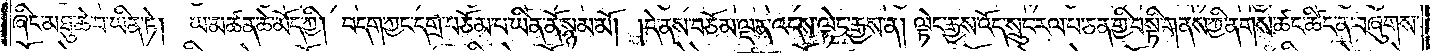ཞིང་མཐུ་ཆེ་བ་ཡིན་ཏེ། ཡ་མཚན་ཆེ་མོད་ཀྱི། བདག་ཀྱང་དགྲ་བཅོམ་པ་ཡིན་ནོ་སྙམ་མོ། །དེ་ནས་བཅོམ་ལྡན་འདས་ལྟེང་རྒྱས་ན། ལྟེང་རྒྱས་འོད་སྲུང་རལ་པ་ཅན་གྱི་བསྟི་གནས་ཀྱི་ནགས་ཚང་ཚིང་ན་བཞུགས་
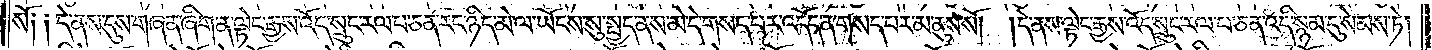སོ༑ ༑དེ་ནས་དུས་གཞན་ཞིག་ན་ལྟེང་རྒྱས་འོད་སྲུང་རལ་པ་ཅན་རང་ཉིད་མེ་ལ་ཡོངས་སུ་སྤྱད་ནས་མེ་དེ་གསད་པར་འདོད་ན་གསད་པར་མ་ནུས་སོ། །དེ་ནས་ལྟེང་རྒྱས་འོད་སྲུང་རལ་པ་ཅན་འདི་སྙམ་དུ་སེམས་ཏེ།
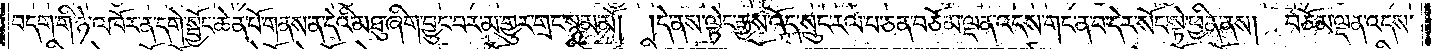བདག་གི་ཉེ་འཁོར་ན་དགེ་སྦྱོང་ཆེན་པོ་གནས་ན་དེའི་མཐུ་ཞིག་བྱུང་བར་མ་གྱུར་གྲང་སྙམ་མོ། །དེ་ནས་ལྟེང་རྒྱས་འོད་སྲུང་རལ་པ་ཅན་བཅོམ་ལྡན་འདས་གང་ན་བ་དེར་སོང་སྟེ་ཕྱིན་ནས། བཅོམ་ལྡན་འདས་
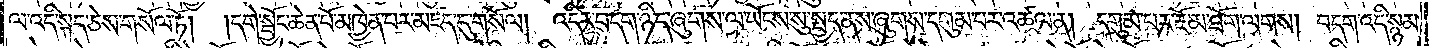ལ་འདི་སྐད་ཅེས་གསོལ་ཏོ། །དགེ་སྦྱོང་ཆེན་པོ་མཁྱེན་པར་མཛད་དུ་གསོལ། འདིར་བདག་ཉིད་ཞུགས་ལ་ཡོངས་སུ་སྤྱད་ནས་ཞུགས་དགུམ་པར་འཚལ་ན། དགུམ་པར་རྔོ་མ་ཐོག་ལགས། བདག་འདི་སྙམ་
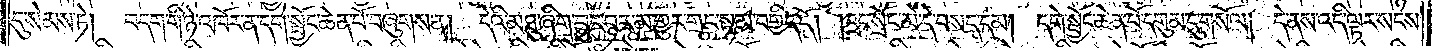དུ་སེམས་ཏེ། བདག་གི་ཉེ་འཁོར་ན་དགེ་སྦྱོང་ཆེན་པོ་བཞུགས་ན། དེའི་མཐུ་ཞིག་བྱུང་བར་མ་གྱུར་གྲང་སྙམ་བགྱིད་དོ། །དྲང་སྲོང་མེ་དེ་བསད་དམ། དགེ་སྦྱོང་ཆེན་པོ་དགུམ་དུ་གསོལ། དེ་ནས་འདི་ལྟར་སངས་
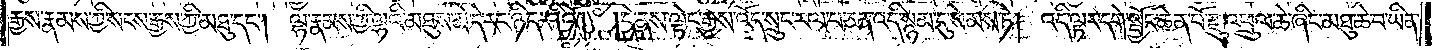རྒྱས་རྣམས་ཀྱི་སངས་རྒྱས་ཀྱི་མཐུ་དང༌། ལྷ་རྣམས་ཀྱི་ལྷའི་མཐུས་མེ་དེ་རང་ཉིད་ཤིའོ། །དེ་ནས་ལྟེང་རྒྱས་འོད་སྲུང་རལ་པ་ཅན་འདི་སྙམ་དུ་སེམས་ཏེ། འདི་ལྟར་དགེ་སྦྱོང་ཆེན་པོ་རྫུ་འཕྲུལ་ཆེ་ཞིང་མཐུ་ཆེ་བ་ཡིན་
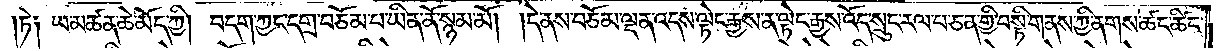ཏེ༑ ཡ་མཚན་ཆེ་མོད་ཀྱི། བདག་ཀྱང་དགྲ་བཅོམ་པ་ཡིན་ནོ་སྙམ་མོ། །དེ་ནས་བཅོམ་ལྡན་འདས་ལྟེང་རྒྱས་ན་ལྟེང་རྒྱས་འོད་སྲུང་རལ་པ་ཅན་གྱི་བསྟི་གནས་ཀྱི་ནགས་ཚང་ཚིང་
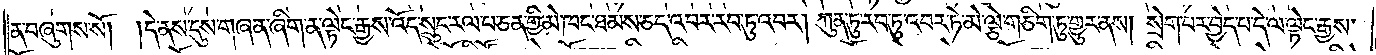ན་བཞུགས་སོ། །དེ་ནས་དུས་གཞན་ཞིག་ན་ལྟེང་རྒྱས་འོད་སྲུང་རལ་པ་ཅན་གྱི་མེ་ཁང་ཐམས་ཅད་འབར་རབ་ཏུ་འབར། ཀུན་ཏུ་རབ་ཏུ་འབར་ཏེ་མེ་ལྕེ་གཅིག་ཏུ་གྱུར་ནས། སྲེག་པར་བྱེད་པ་དེ་ལ་ལྟེང་རྒྱས་
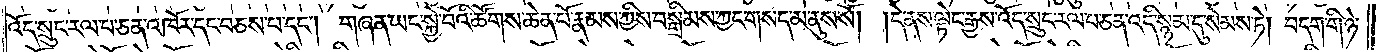འོད་སྲུང་རལ་པ་ཅན་འཁོར་དང་བཅས་པ་དང༌། གཞན་ཡང་སྐྱེ་བོའི་ཚོགས་ཆེན་པོ་རྣམས་ཀྱིས་བསྒྲིམས་ཀྱང་གསད་མ་ནུས་སོ། །དེ་ནས་ལྟེང་རྒྱས་འོད་སྲུང་རལ་པ་ཅན་འདི་སྙམ་དུ་སེམས་ཏེ། བདག་གི་ཉེ་
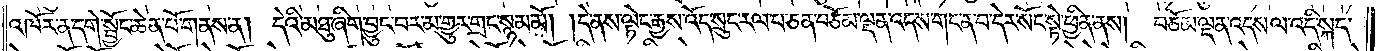འཁོར་ན་དགེ་སྦྱོང་ཆེན་པོ་གནས་ན། དེའི་མཐུ་ཞིག་བྱུང་བར་མ་གྱུར་གྲང་སྙམ་མོ། །དེ་ནས་ལྟེང་རྒྱས་འོད་སྲུང་རལ་པ་ཅན་བཅོམ་ལྡན་འདས་གང་ན་བ་དེར་སོང་སྟེ་ཕྱིན་ནས། བཅོམ་ལྡན་འདས་ལ་འདི་སྐད་
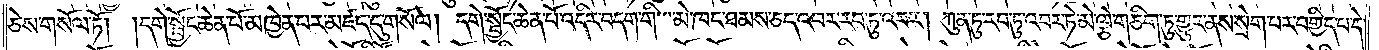ཅེས་གསོལ་ཏོ། །དགེ་སྦྱོང་ཆེན་པོ་མཁྱེན་པར་མཛད་དུ་གསོལ། དགེ་སྦྱོང་ཆེན་པོ་འདིར་བདག་གི་མེ་ཁང་ཐམས་ཅད་འབར་རབ་ཏུ་འབར། ཀུན་ཏུ་རབ་ཏུ་འབར་ཏེ་མེ་ལྕེ་གཅིག་ཏུ་གྱུར་ནས་སྲེག་པར་བགྱིད་པ་དེ་
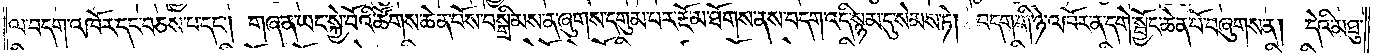ལ་བདག་འཁོར་དང་བཅས་པ་དང༌། གཞན་ཡང་སྐྱེ་བོའི་ཚོགས་ཆེན་པོས་བསྒྲིམས་ན་ཞུགས་དགུམ་པར་རྔོ་མ་ཐོགས་ནས་བདག་འདི་སྙམ་དུ་སེམས་ཏེ། བདག་གི་ཉེ་འཁོར་ན་དགེ་སྦྱོང་ཆེན་པོ་བཞུགས་ན། དེའི་མཐུ་
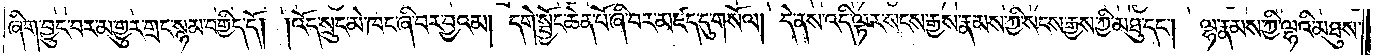ཞིག་བྱུང་བར་མ་གྱུར་གྲང་སྙམ་བགྱིད་དོ། །འོད་སྲུང་མེ་ཁང་ཞི་བར་བྱའམ། དགེ་སྦྱོང་ཆེན་པོ་ཞི་བར་མཛད་དུ་གསོལ། དེ་ནས་འདི་ལྟར་སངས་རྒྱས་རྣམས་ཀྱི་སངས་རྒྱས་ཀྱི་མཐུ་དང༌། ལྷ་རྣམས་ཀྱི་ལྷའི་མཐུས་
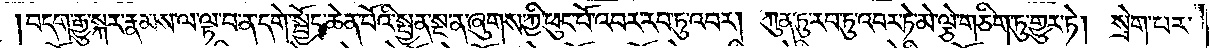བདག་རྒྱུ་སྐར་རྣམས་ལ་ལྟ་བ་ན་དགེ་སྦྱོང་ཆེན་པོའི་སྤྱན་སྔ་ན་ཞུགས་ཀྱི་ཕུང་པོ་འབར་རབ་ཏུ་འབར། ཀུན་ཏུ་རབ་ཏུ་འབར་ཏེ་མེ་ལྕེ་གཅིག་ཏུ་གྱུར་ཏེ། སྲེག་པར་
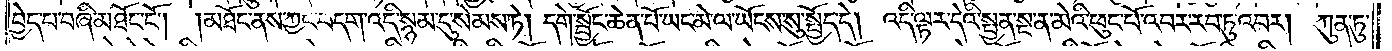བྱེད་པ་བཞི་མཐོང་ངོ༌། །མཐོང་ནས་ཀྱང་བདག་འདི་སྙམ་དུ་སེམས་ཏེ། དགེ་སྦྱོང་ཆེན་པོ་ཡང་མེ་ལ་ཡོངས་སུ་སྤྱོད་དེ། འདི་ལྟར་དེའི་སྤྱན་སྔ་ན་མེའི་ཕུང་པོ་འབར་རབ་ཏུ་འབར། ཀུན་ཏུ་
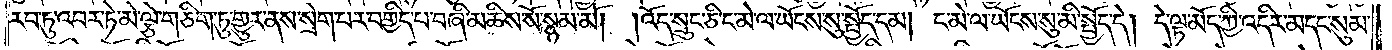རབ་ཏུ་འབར་ཏེ་མེ་ལྕེ་གཅིག་ཏུ་གྱུར་ནས་སྲེག་པར་བགྱིད་པ་བཞི་མཆིས་སོ་སྙམ་མོ། །འོད་སྲུང་ཅིང་མེ་ལ་ཡོངས་སུ་སྤྱོད་དམ། ང་མེ་ལ་ཡོངས་སུ་མི་སྤྱོད་དེ། དེ་ལྟ་མོད་ཀྱི་འདིར་མདང་སུམ་
